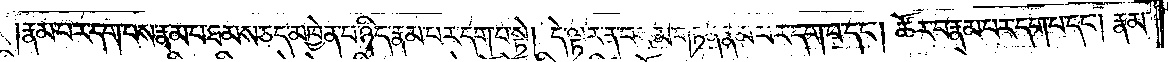རྣམ་པར་དག་པས་རྣམ་པ་ཐམས་ཅད་མཁྱེན་པ་ཉིད་རྣམ་པར་དག་པ་སྟེ། དེ་ལྟར་ན་བསམ་གཏན་རྣམ་པར་དག་པ་དང༌། ཚོར་བ་རྣམ་པར་དག་པ་དང༌། རྣམ་
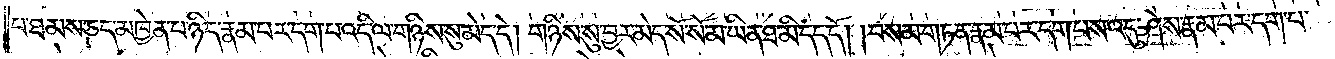པ་ཐམས་ཅད་མཁྱེན་པ་ཉིད་རྣམ་པར་དག་པ་འདི་ལ་གཉིས་སུ་མེད་དེ། གཉིས་སུ་བྱར་མེད་སོ་སོ་མ་ཡིན་ཐ་མི་དད་དོ། །བསམ་གཏན་རྣམ་པར་དག་པས་འདུ་ཤེས་རྣམ་པར་དག་པ་
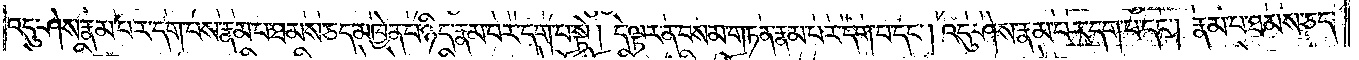འདུ་ཤེས་རྣམ་པར་དག་པས་རྣམ་པ་ཐམས་ཅད་མཁྱེན་པ་ཉིད་རྣམ་པར་དག་པ་སྟེ། དེ་ལྟར་ན་བསམ་གཏན་རྣམ་པར་དག་པ་དང༌། འདུ་ཤེས་རྣམ་པར་དག་པ་དང༌། རྣམ་པ་ཐམས་ཅད་
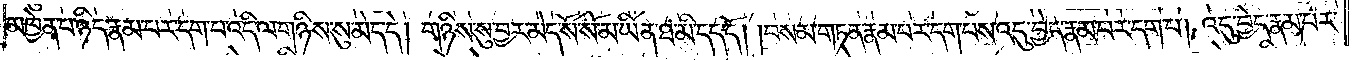མཁྱེན་པ་ཉིད་རྣམ་པར་དག་པ་འདི་ལ་གཉིས་སུ་མེད་དེ། གཉིས་སུ་བྱར་མེད་སོ་སོ་མ་ཡིན་ཐ་མི་དད་དོ། །བསམ་གཏན་རྣམ་པར་དག་པས་འདུ་བྱེད་རྣམ་པར་དག་པ། འདུ་བྱེད་རྣམ་པར་
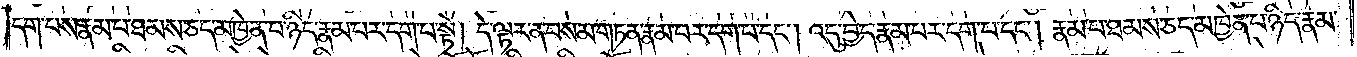དག་པས་རྣམ་པ་ཐམས་ཅད་མཁྱེན་པ་ཉིད་རྣམ་པར་དག་པ་སྟེ། དེ་ལྟར་ན་བསམ་གཏན་རྣམ་པར་དག་པ་དང༌། འདུ་བྱེད་རྣམ་པར་དག་པ་དང༌། རྣམ་པ་ཐམས་ཅད་མཁྱེན་པ་ཉིད་རྣམ་
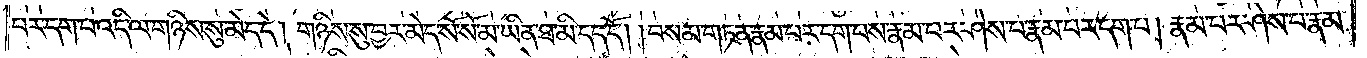པར་དག་པ་འདི་ལ་གཉིས་སུ་མེད་དེ། གཉིས་སུ་བྱར་མེད་སོ་སོ་མ་ཡིན་ཐ་མི་དད་དོ། བསམ་གཏན་རྣམ་པར་དག་པས་རྣམ་པར་ཤེས་པ་རྣམ་པར་དག་པ། རྣམ་པར་ཤེས་པ་རྣམ་
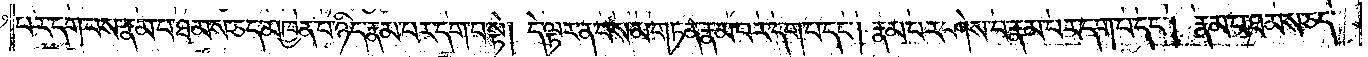པར་དག་པས་རྣམ་པ་ཐམས་ཅད་མཁྱེན་པ་ཉིད་རྣམ་པར་དག་པ་སྟེ། དེ་ལྟར་ན་བསམ་གཏན་རྣམ་པར་དག་པ་དང༌། རྣམ་པར་ཤེས་པ་རྣམ་པར་དག་པ་དང༌། རྣམ་པ་ཐམས་ཅད་
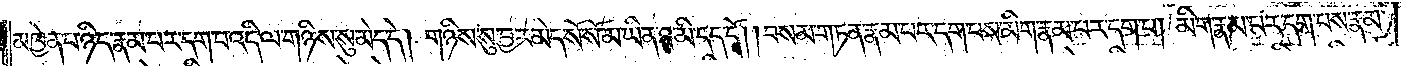མཁྱེན་པ་ཉིད་རྣམ་པར་དག་པ་འདི་ལ་གཉིས་སུ་མེད་དེ། གཉིས་སུ་བྱར་མེད་སོ་སོ་མ་ཡིན་ཐ་མི་དད་དོ། །བསམ་གཏན་རྣམ་པར་དག་པས་མིག་རྣམ་པར་དག་པ། མིག་རྣམ་པར་དག་པས་རྣམ་
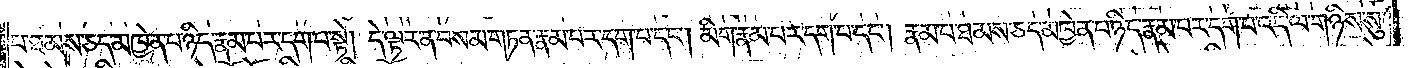པ་ཐམས་ཅད་མཁྱེན་པ་ཉིད་རྣམ་པར་དག་པ་སྟེ། དེ་ལྟར་ན་བསམ་གཏན་རྣམ་པར་དག་པ་དང༌། མིག་རྣམ་པར་དག་པ་དང༌། རྣམ་པ་ཐམས་ཅད་མཁྱེན་པ་ཉིད་རྣམ་པར་དག་པ་འདི་ལ་གཉིས་སུ་
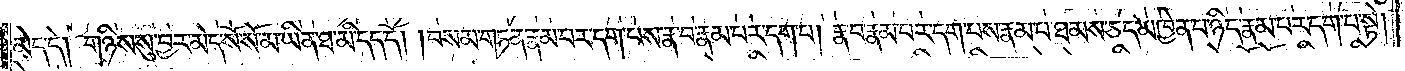མེད་དེ། གཉིས་སུ་བྱར་མེད་སོ་སོ་མ་ཡིན་ཐ་མི་དད་དོ། །བསམ་གཏན་རྣམ་པར་དག་པས་རྣ་བ་རྣམ་པར་དག་པ། རྣ་བ་རྣམ་པར་དག་པས་རྣམ་པ་ཐམས་ཅད་མཁྱེན་པ་ཉིད་རྣམ་པར་དག་པ་སྟེ།
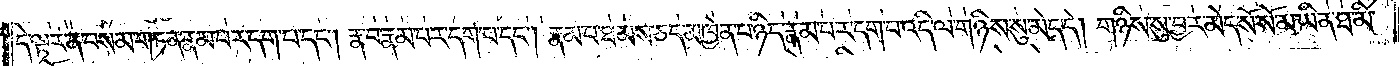དེ་ལྟར་ན་བསམ་གཏན་རྣམ་པར་དག་པ་དང༌། རྣ་བ་རྣམ་པར་དག་པ་དང༌། རྣམ་པ་ཐམས་ཅད་མཁྱེན་པ་ཉིད་རྣམ་པར་དག་པ་འདི་ལ་གཉིས་སུ་མེད་དེ། གཉིས་སུ་བྱར་མེད་སོ་སོ་མ་ཡིན་ཐ་མི་
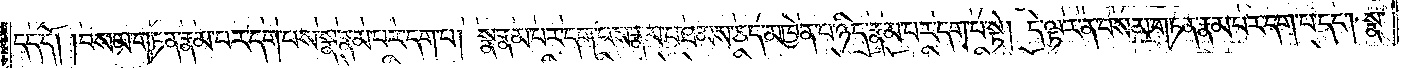དད་དོ། །བསམ་གཏན་རྣམ་པར་དག་པས་སྣ་རྣམ་པར་དག་པ། སྣ་རྣམ་པར་དག་པས་རྣམ་པ་ཐམས་ཅད་མཁྱེན་པ་ཉིད་རྣམ་པར་དག་པ་སྟེ། དེ་ལྟར་ན་བསམ་གཏན་རྣམ་པར་དག་པ་དང༌། སྣ་
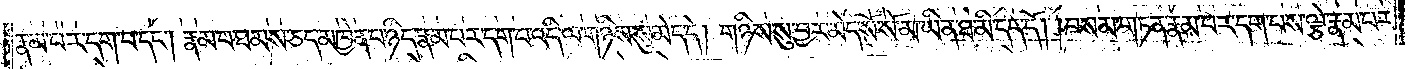རྣམ་པར་དག་པ་དང༌། རྣམ་པ་ཐམས་ཅད་མཁྱེན་པ་ཉིད་རྣམ་པར་དག་པ་འདི་ལ་གཉིས་སུ་མེད་དེ། གཉིས་སུ་བྱང་མེད་སོ་སོ་མ་ཡིན་ཐ་མི་དད་དོ། །བསམ་གཏན་རྣམ་པར་དག་པས་ལྕེ་རྣམ་པར་
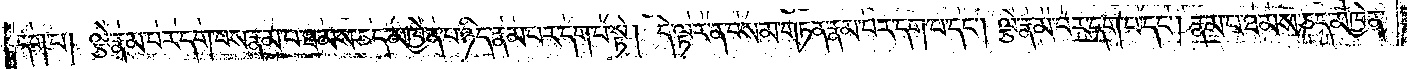དག་པ། ལྕེ་རྣམ་པར་དག་པས་རྣམ་པ་ཐམས་ཅད་མཁྱེན་པ་ཉིད་རྣམ་པར་དག་པ་སྟེ། དེ་ལྟར་ན་བསམ་གཏན་རྣམ་པར་དག་པ་དང༌། ལྕེ་རྣམ་པར་དག་པ་དང༌། རྣམ་པ་ཐམས་ཅད་མཁྱེན་
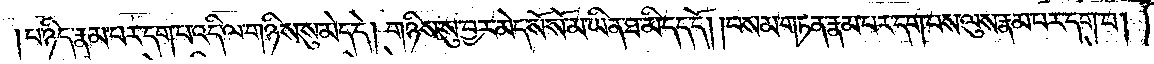པ་ཉིད་རྣམ་པར་དག་པ་འདི་ལ་གཉིས་སུ་མེད་དེ། གཉིས་སུ་བྱར་མེད་སོ་སོ་མ་ཡིན་ཐ་མི་དད་དོ། །བསམ་གཏན་རྣམ་པར་དག་པས་ལུས་རྣམ་པར་དག་པ།
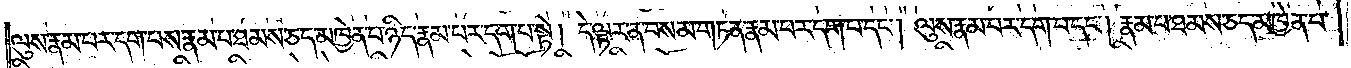ལུས་རྣམ་པར་དག་པས་རྣམ་པ་ཐམས་ཅད་མཁྱེན་པ་ཉིད་རྣམ་པར་དག་པ་སྟེ། དེ་ལྟར་ན་བསམ་གཏན་རྣམ་པར་དག་པ་དང༌། ལུས་རྣམ་པར་དག་པ་དང༌། རྣམ་པ་ཐམས་ཅད་མཁྱེན་པ་
